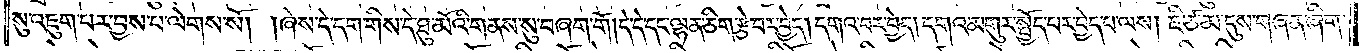སུ་འཇུག་པར་བྱས་པ་ལེགས་སོ། །ཞེས་དེ་དག་གིས་དེ་ཐུ་མོའི་གནས་སུ་བཞག་གོ །དེ་དེ་དང་ལྷན་ཅིག་རྩེ་བར་བྱེད། དགའ་བར་བྱེད། དགའ་མགུར་སྤྱོད་པར་བྱེད་པ་ལས། ཇི་ཙམ་དུས་གཞན་ཞིག་
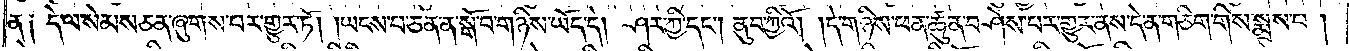ན༑ དེ་ལ་སེམས་ཅན་ཞུགས་པར་གྱུར་ཏོ། །ཡངས་པ་ཅན་ན་སྒོ་བ་གཉིས་ཡོད་དེ། ཤར་ཀྱི་དང༌། ནུབ་ཀྱིའོ། །དེ་གཉིས་ཕན་ཚུན་བཤེས་པར་གྱུར་ནས་དེ་ན་གཅིག་གིས་སྨྲས་པ།
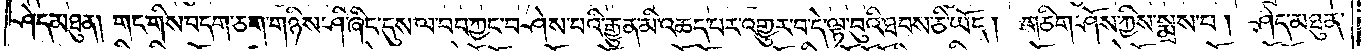ཤེད་མཐུན། གང་གིས་བདག་ཅག་གཉིས་ཤི་ཞིང་དུས་ལ་བབ་ཀྱང་བཤེས་པའི་རྒྱུན་མི་འཆད་པར་འགྱུར་བ་དེ་ལྟ་བུའི་ཐབས་ཅི་ཡོད། གཅིག་ཤོས་ཀྱིས་སྨྲས་པ། ཤེད་མཐུན་
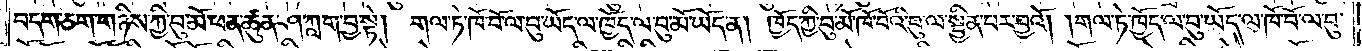བདག་ཅག་གཉིས་ཀྱི་བུ་མོ་ཕན་ཚུན་ཤ་ཀླག་བྱ་སྟེ། གལ་ཏེ་ཁོ་བོ་ལ་བུ་ཡོད་ལ་ཁྱོད་ལ་བུ་མོ་ཡོད་ན། ཁྱོད་ཀྱི་བུ་མོ་ཁོ་བོའི་བུ་ལ་སྦྱིན་པར་བྱའོ། །གལ་ཏེ་ཁྱོད་ལ་བུ་ཡོད་ལ་ཁོ་བོ་ལ་བུ་
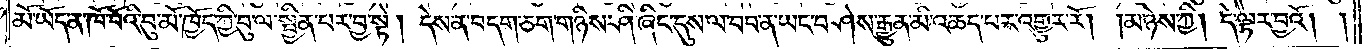མོ་ཡོད་ན་ཁོ་བོའི་བུ་མོ་ཁྱོད་ཀྱི་བུ་ལ་སྦྱིན་པར་བྱ་སྟེ། དེས་ན་བདག་ཅག་གཉིས་ཤི་ཞིང་དུས་ལ་བབ་ན་ཡང་བཤེས་རྒྱུན་མི་འཆད་པར་འགྱུར་རོ། །མ་ཉེས་ཀྱི། དེ་ལྟར་བྱའོ། །
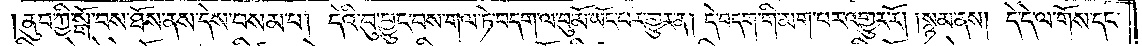ནུབ་ཀྱི་སྒོ་བས་ཐོས་ནས་དེས་བསམ་པ། དེའི་བུ་བྱུང་བས་གལ་ཏེ་བདག་ལ་བུ་མོ་ཡོང་བར་གྱུར་ན། དེ་བདག་གི་མག་པར་འགྱུར་རོ། །སྙམ་ནས། དེ་དེ་ལ་གོས་དང༌།
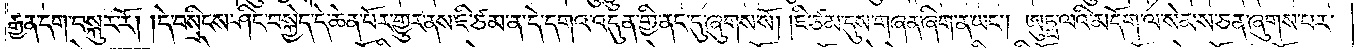རྒྱན་དག་བསྐུར་རོ། །དེ་བསྲིངས་ཤིང་བསྐྱེད་དེ་ཆེན་པོར་གྱུར་ནས་ཇི་ཙམ་ན་དེ་དགའ་འདུན་གྱི་ནང་དུ་ཞུགས་སོ། །ཇི་ཙམ་དུས་གཞན་ཞིག་ན་ཡང༌། ཨུཏྤ་ལའི་མདོག་ལ་སེམས་ཅན་ཞུགས་པར་
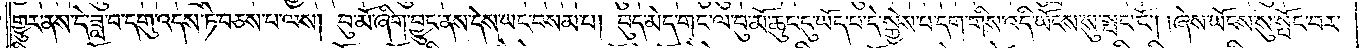གྱུར་ནས་དེ་ཟླ་བ་དགུ་འདས་ཏེ་བཅས་པ་ལས། བུ་མོ་ཞིག་བྱུང་ནས་དེས་ཡང་བསམ་པ། བུད་མེད་གང་ལ་བུ་མོ་ཆུང་ངུ་ཡོད་པ་དེ་སྐྱེས་པ་དག་གིས་འདི་ཡོངས་སུ་སྤང་ངོ༌། །ཞེས་ཡོངས་སུ་སྤོང་བར་
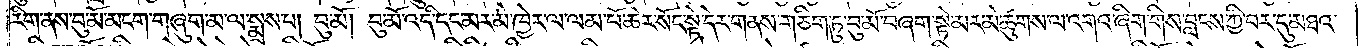རིག་ནས་བུ་མོ་མངག་གཞུག་མ་ལ་སྨྲས་པ། བུ་མོ། བུ་མོ་འདི་དང་མར་མེ་ཁྱེར་ལ་ལམ་པོ་ཆེར་སོང་སྟེ་དེར་གནས་གཅིག་ཏུ་བུ་མོ་བཞག་སྟེ་མར་མེ་ཚུགས་ལ་འགའ་ཞིག་གིས་བླངས་ཀྱི་བར་དུ་མཐའ་
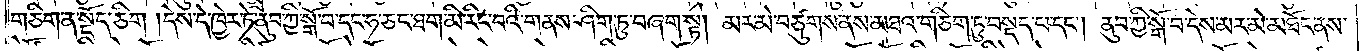གཅིག་ན་སྡོད་ཅིག །དེས་དེ་ཁྱེར་ཏེ་ནུབ་ཀྱི་སྒོ་བ་དང་ཧ་ཅང་ཐག་མི་རིང་བའི་གནས་ཤིག་ཏུ་བཞག་སྟེ། མར་མེ་བཙུགས་ནས་མཐའ་གཅིག་ཏུ་བསྡད་པ་དང༌། ནུབ་ཀྱི་སྒོ་བ་དེས་མར་མེ་མཐོང་ནས་
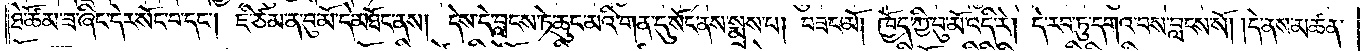ཐེ་ཚོམ་ཟ་ཞིང་དེར་སོང་བ་དང༌། ཇི་ཙམ་ན་བུ་མོ་དེ་མཐོང་ནས། དེས་དེ་བླངས་ཏེ་ཆུང་མའི་གན་དུ་སོང་ནས་སྨྲས་པ། བཟང་མོ། ཁྱོད་ཀྱི་བུ་མོ་འདི་རེ། དེ་རབ་ཏུ་དགའ་བས་བླངས་སོ། །དེ་ནས་མཚན་
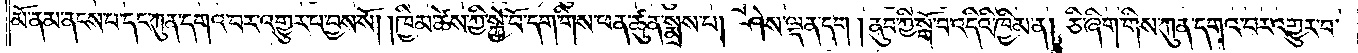མོ་ནམ་ནངས་པ་དང་ཀུན་དགའ་བར་འགྱུར་པ་བྱས་སོ། །ཁྱིམ་ཚེས་ཀྱི་སྐྱེ་བོ་དག་གིས་ཕན་ཚུན་སྨྲས་པ། ཤེས་ལྡན་དག །ནུབ་ཀྱི་སྒོ་བ་འདིའི་ཁྱིམ་ན། ཅི་ཞིག་གིས་ཀུན་དགའ་བར་འགྱུར་བ་
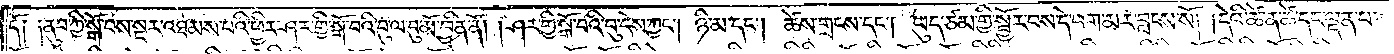དོ༑ ༑ནུབ་ཀྱི་སྒོ་བས་སྔར་འཐམས་པའི་ཕྱིར་ཤར་གྱི་སྒོ་བའི་བུ་ལ་བུ་མོ་བྱིན་ནོ། །ཤར་གྱི་སྒོ་བའི་བུ་དེས་ཀྱང༌། ཉི་མ་དང༌། ཚེས་གྲངས་དང༌། ཡུད་ཙམ་གྱི་སྦྱོར་བས་དེ་བག་མར་བླངས་སོ། །དེའི་ཚེ་ན་ཚེ་དང་ལྡན་པ་
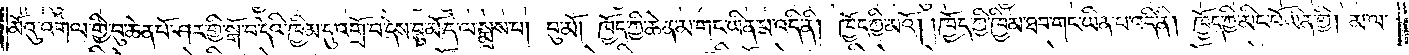མོའུ་འགལ་གྱི་བུ་ཆེན་པོ་ཤར་གྱི་སྒོ་བ་དེའི་ཁྱིམ་དུ་འགྲོ་བ་དེས་བུ་མོ་དེ་ལ་སྨྲས་པ། བུ་མོ། ཁྱོད་ཀྱི་ཆེན་མ་གང་ཡིན་པ་འདི་ནི། ཁྱོད་ཀྱི་མའོ། །ཁྱོད་ཀྱི་ཁྱིམ་ཐབ་གང་ཡིན་པ་འདི་ནི། ཁྱོད་ཀྱི་མིང་པོ་ཡིན་གྱི། མ་ལ་
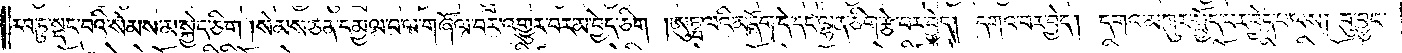རབ་ཏུ་སྡང་བའི་སེམས་མ་སྐྱེད་ཅིག །སེམས་ཅན་དམྱལ་བ་ལ་གཞོལ་བར་འགྱུར་བར་མ་བྱེད་ཅིག །ཨུཏྤ་ལའི་མདོག་དེ་དང་ལྷན་ཅིག་རྩེ་བར་བྱེད། དགའ་བར་བྱེད། དགའ་མགུར་སྤྱོད་པར་བྱེད་པ་ལས། བུ་བྱུང་
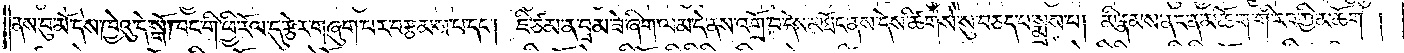ནས་བུ་མོ་དེས་ཁྱེའུ་དེ་སྒོ་ཁང་གི་ཕྱི་རོལ་དུ་རྩེར་གཞུག་པར་བརྩམས་པ་དང༌། ཇི་ཙམ་ན་བྲམ་ཟེ་ཞིག་ལམ་དེ་ནས་འགྲོ་བ་དེས་མཐོང་ནས་དེས་ཚིགས་སུ་བཅད་པ་སྨྲས་པ། མི་རྣམས་ནང་ན་མཆོག་གི་རབ་ཀྱི་མཆོག །
